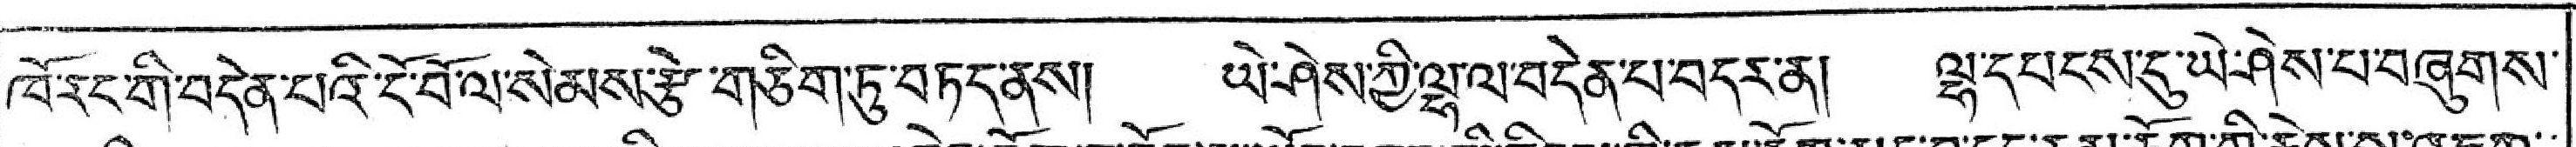ཁོ་རང་གི་བདེན་པའི་ངོ་བོ་ལ་སེམས་རྩེ་གཅིག་ཏུ་བཏད་ནས། ཡེ་ཤེས་ཀྱི་ལྷ་ལ་བདེན་པ་བདར་ན། ལྷ་དཔངས་དུ་ཡེ་ཤེས་པ་བཞུགས་
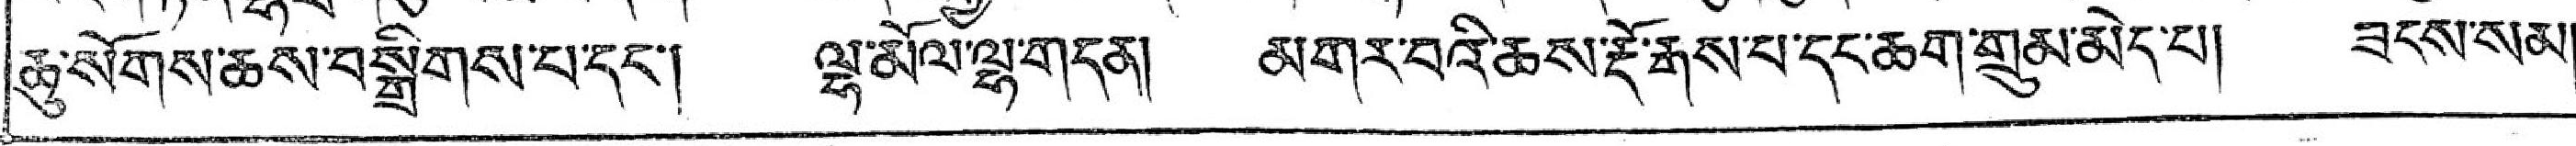ཆུ་སོགས་ཆས་བསྒྲིགས་པ་དང་། ལྷ་མོལ་ལྷ་གདན། མགར་བའི་ཆས་རྡོ་རྒས་པ་དང་ཆག་གྲུམ་མེད་པ། ཟངས་སམ།
